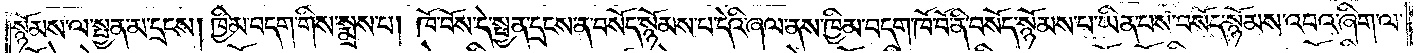སྙོམས་ལ་སྤྱན་མ་དྲངས། ཁྱིམ་བདག་གིས་སྨྲས་པ། ཁོ་བོས་དེ་སྤྱན་དྲངས་ན་བསོད་སྙོམས་པ་དེའི་ཞལ་ནས་ཁྱིམ་བདག་ཁོ་བོ་ནི་བསོད་སྙོམས་པ་ཡིན་པས་བསོད་སྙོམས་འབའ་ཞིག་ལ་
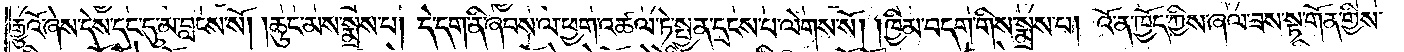རྒྱུའོ་ཞེས་དེས་དང་དུ་མ་བླངས་སོ། །ཆུང་མས་སྨྲས་པ། དེ་དག་ནི་ཞབས་ལ་ཕྱག་འཚལ་ཏེ་སྤྱན་དྲངས་པ་ལེགས་སོ། །ཁྱིམ་བདག་གིས་སྨྲས་པ། འོ་ན་ཁྱོད་ཀྱིས་ཞལ་ཟས་སྟ་གོན་གྱིས་
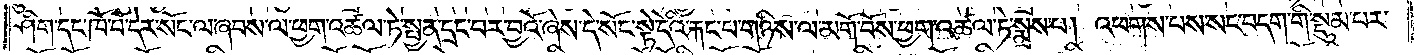ཤིག་དང་ཁོ་བོ་དེར་སོང་ལ་ཞབས་ལ་ཕྱག་འཚལ་ཏེ་སྤྱན་དྲང་བར་བྱའོ་ཞེས་དེ་སོང་སྟེ་དེའི་རྐང་པ་གཉིས་ལ་མགོ་བོས་ཕྱག་འཚལ་ཏེ་སྨྲས་པ། འཕགས་པས་སང་བདག་གི་སྡུམ་པར་
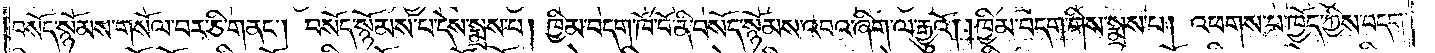བསོད་སྙོམས་གསོལ་བར་ཅི་གནང༌། བསོད་སྙོམས་པ་དེས་སྨྲས་པ། ཁྱིམ་བདག་ཁོ་བོ་ནི་བསོད་སྙོམས་འབའ་ཞིག་ལ་རྒྱུའོ། །ཁྱིམ་བདག་གིས་སྨྲས་པ། འཕགས་པ་ཁྱོད་ཀྱིས་བདག་
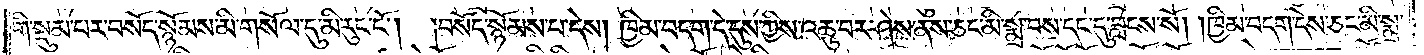གི་སྡུམ་པར་བསོད་སྙོམས་མི་གསོལ་དུ་མི་རུང་ངོ༌། །བསོད་སྙོམས་པ་དེས། ཁྱིམ་བདག་དེ་དུས་ཀྱིས་འཆུ་བར་ཤེས་ནས་ཅང་མི་སྨྲ་བས་དང་དུ་བླངས་སོ། །ཁྱིམ་བདག་དེས་ཅང་མི་སྨྲ་
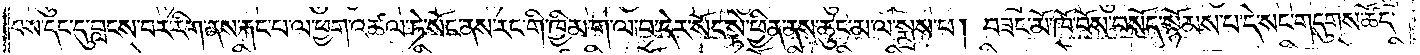བས་དང་དུ་བླངས་པར་རིག་ནས་རྐང་པ་ལ་ཕྱག་འཚལ་ཏེ་སོང་ནས་རང་གི་ཁྱིམ་ག་ལ་བ་དེར་སོང་སྟེ་ཕྱིན་ནས་ཆུང་མ་ལ་སྨྲས་པ། བཟང་མོ་ཁོ་བོས་བསོད་སྙོམས་པ་དེ་སང་གདུགས་ཚོད་
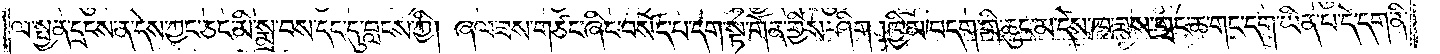ལ་སྤྱན་དྲངས་ན་དེས་ཀྱང་ཅང་མི་སྨྲ་བས་དང་དུ་བླངས་ཀྱི། ཞལ་ཟས་གཙང་ཞིང་བསོད་པ་དག་སྟ་གོན་གྱིས་ཤིག །ཁྱིམ་བདག་གི་ཆུང་མ་དེས་ཁ་ཟས་གྲང་ཆ་གང་དག་ཡིན་པ་དེ་དག་ནི་
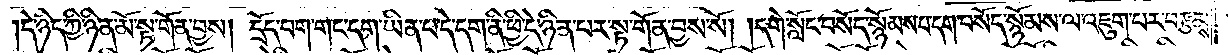དེ་ཉིད་ཀྱི་ཉིན་མོ་སྟ་གོན་བྱས། དྲོད་བག་གང་དག་ཡིན་པ་དེ་དག་ནི་ཕྱི་དེ་ཉིན་པར་སྟ་གོན་བྱས་སོ། །དགེ་སློང་བསོད་སྙོམས་བདག་བསོད་སྙོམས་ལ་འཇུག་པར་བརྩམས་
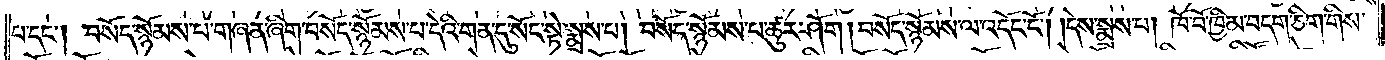པ་དང༌། བསོད་སྙོམས་པ་གཞན་ཞིག་བསོད་སྙོམས་པ་དེའི་གན་དུ་སོང་སྟེ་སྨྲས་པ། བསོད་སྙོམས་པ་ཚུར་ཤོག །བསོད་སྙོམས་ལ་འདོང་ངོ༌། །དེས་སྨྲས་པ། ཁོ་བོ་ཁྱིམ་བདག་ཅིག་གིས་
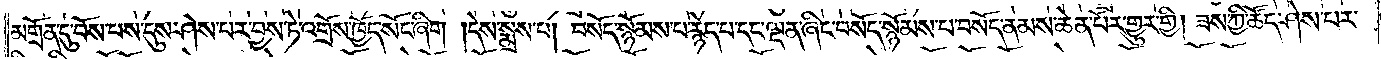མགྲོན་དུ་བོས་པས་དུས་ཤེས་པར་བྱས་ཏེ་འགྲོས་ཁྱོད་སོང་ཞིག །དེས་སྨྲས་པ། བསོད་སྙོམས་པ་རྙེད་པ་དང་ལྡན་ཞིང་བསོད་སྙོམས་པ་བསོད་ནམས་ཆེན་པོར་གྱུར་གྱི། ཟས་ཀྱི་ཚོད་ཤེས་པར་
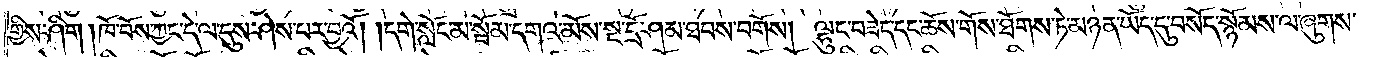གྱིས་ཤིག །ཁོ་བོས་ཀྱང་དེ་ལ་དུས་ཤེས་པར་བྱའོ། །དགེ་སློང་མ་སྦོམ་དགའ་མོས་སྔ་དྲོ་ཤམ་ཐབས་བགོས། ལྷུང་བཟེད་དང་ཆོས་གོས་ཐོགས་ཏེ་མཉན་ཡོད་དུ་བསོད་སྙོམས་ལ་ཞུགས་
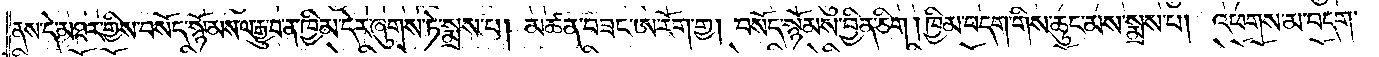ནས་དེ་མཐར་གྱིས་བསོད་སྙོམས་ལ་རྒྱུ་བ་ན་ཁྱིམ་དེར་ཞུགས་ཏེ་སྨྲས་པ། མཚན་བཟང་ཨ་རོག་གྱ། བསོད་སྙོམས་བྱིན་ཅིག །ཁྱིམ་བདག་གིས་ཆུང་མས་སྨྲས་པ། འཕགས་མ་བདག་
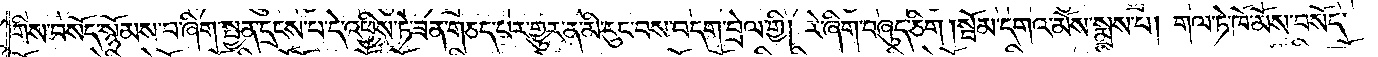གིས་བསོད་སྙོམས་པ་ཞིག་སྤྱན་དྲངས་པ་དེ་འཕྱིས་ཏེ་ཟན་གཅད་པར་གྱུར་ན་མི་རུང་བས་བདག་བྲེལ་གྱི། རེ་ཞིག་བཞུད་ཅིག །སྦོམ་དགའ་མོས་སྨྲས་པ། གལ་ཏེ་ཁོ་མོས་བསོད་
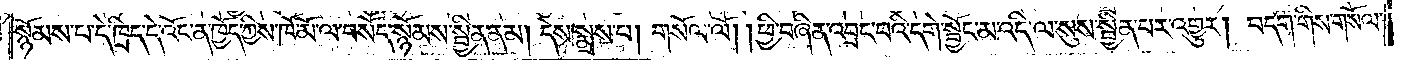སྙོམས་པ་དེ་ཁྲིད་དེ་འོང་ན་ཁྱོད་ཀྱིས་ཁོ་མོ་ལ་བསོད་སྙོམས་སྦྱིན་ནམ། དེས་སྨྲས་པ། གསོལ་ལོ། ཕྱི་བཞིན་འབྲང་བའི་དགེ་སྦྱོང་མ་འདི་ལ་སུས་སྦྱིན་པར་འགྱུར། བདག་གིས་གསོལ་
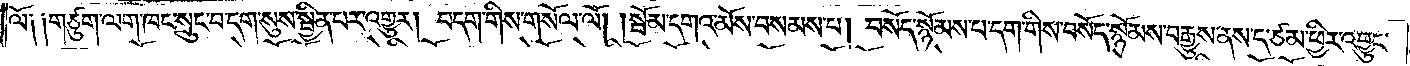ལོ༑ ༑གཙུག་ལག་ཁང་སྲུང་བ་དག་སུས་སྦྱིན་པར་འགྱུར། བདག་གིས་གསོལ་ལོ། །སྦོམ་དགའ་མོས་བསམས་པ། བསོད་སྙོམས་པ་དག་གིས་བསོད་སྙོམས་བརྒྱུས་ནས་ད་ཙམ་ཕྱིར་འབྱུང་
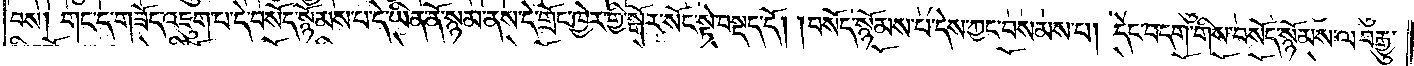བས། གང་ད་གཟོད་འཇུག་པ་དེ་བསོད་སྙོམས་པ་དེ་ཡིན་ནོ་སྙམ་ནས་དེ་གྲོང་ཁྱེར་གྱི་སྒོར་སོང་སྟེ་བསྡད་དོ། །བསོད་སྙོམས་པ་དེས་ཀྱང་བསམས་པ། དེང་བདག་གིས་བསོད་སྙོམས་ལ་བརྒྱུ་
